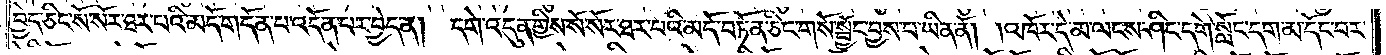བྱེད་ཅིང་སོ་སོར་ཐར་པའི་མདོ་གདོན་པ་འདོན་པར་བྱེད་ན། དགེ་འདུན་གྱིས་སོ་སོར་ཐར་བའི་མདོ་བཏོན་ཅིང་གསོ་སྦྱོང་བྱས་པ་ཡིན་ནོ། །འཁོར་དེ་མ་ལངས་ཤིང་དགེ་སློང་དག་མདོང་བར་
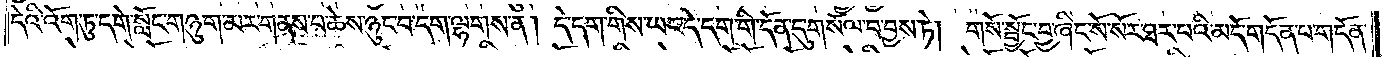དེའི་འོག་ཏུ་དགེ་སློང་གཉུག་མར་གནས་པ་ཆེས་ཉུང་བ་དག་ལྷགས་ན། དེ་དག་གིས་ཡང་དེ་དག་གི་དོན་དུ་གསོལ་བ་བྱས་ཏེ། གསོ་སྦྱོང་བྱ་ཞིང་སོ་སོར་ཐར་པའི་མདོ་གདོན་པ་གདོན་
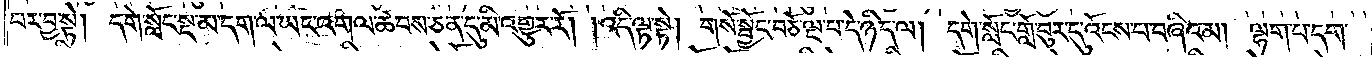པར་བྱ་སྟེ། དགེ་སློང་སྔ་མ་དག་ལ་ཡང་འགལ་ཚབས་ཅན་དུ་མི་འགྱུར་རོ། །འདི་ལྟ་སྟེ། གསོ་སྦྱོང་བཅོ་ལྔ་པ་དེ་ཉིད་ལ། དགེ་སློང་གློ་བུར་དུ་འོངས་པ་བཞིའམ། ལྷག་པ་དག་
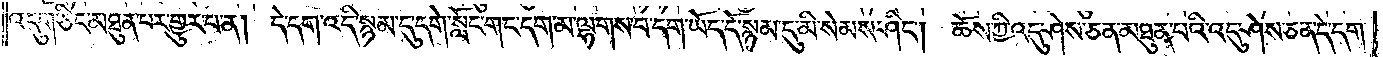འདུག་ཅིང་མཐུན་པར་གྱུར་པ་ན། དེ་དག་འདི་སྙམ་དུ་དགེ་སློང་གང་དག་མ་ལྷགས་བདག་ཡོད་དོ་སྙམ་དུ་མི་སེམས་ཤིང༌། ཆོས་ཀྱི་འདུ་ཤེས་ཅན་མཐུན་པའི་འདུ་ཤེས་ཅན་དེ་དག་
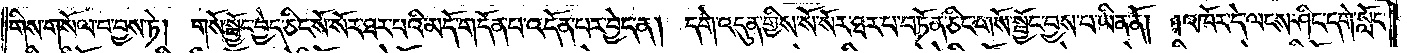གིས་གསོལ་བ་བྱས་ཏེ། གསོ་སྦྱོང་བྱེད་ཅིང་སོ་སོར་ཐར་པའི་མདོ་གདོན་པ་འདོན་པར་བྱེད་ན། དགེ་འདུན་གྱིས་སོ་སོར་ཐར་པ་བཏོན་ཅིང་གསོ་སྦྱོང་བྱས་པ་ཡིན་ནོ། །འཁོར་དེ་ལངས་ཤིང་དགེ་སློང་
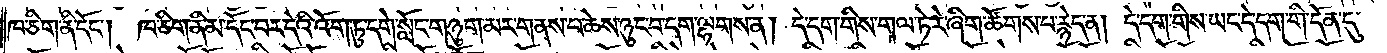ཁ་ཅིག་ནི་དོང༌། ཁ་ཅིག་ནི་མ་དོང་བར་དེའི་འོག་ཏུ་དགེ་སློང་གཉུག་མར་གནས་པ་ཆེས་ཉུང་བ་དག་ལྷགས་ན། དེ་དག་གིས་གལ་ཏེ་རེ་ཞིག་ཚོགས་པ་རྙེད་ན། དེ་དག་གིས་ཡང་དེ་དག་གི་དོན་དུ་
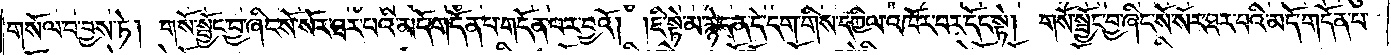གསོལ་བ་བྱས་ཏེ། གསོ་སྦྱོང་བྱ་ཞིང་སོ་སོར་ཐར་པའི་མདོ་གདོན་པ་གདོན་པར་བྱའོ། །ཇི་སྟེ་མ་རྙེད་ན་དེ་དག་གིས་དཀྱིལ་འཁོར་བར་དོང་སྟེ། གསོ་སྦྱོང་བྱ་ཞིང་སོ་སོར་ཐར་པའི་མདོ་གདོན་པ་
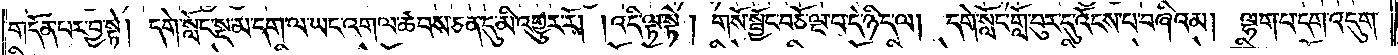གདོན་པར་བྱ་སྟེ། དགེ་སློང་སྔ་མ་དག་ལ་ཡང་འགལ་ཚབས་ཅན་དུ་མི་འགྱུར་རོ། །འདི་ལྟ་སྟེ། གསོ་སྦྱོང་བཅོ་ལྔ་པ་དེ་ཉིད་ལ། དགེ་སློང་གློ་བུར་དུ་འོངས་པ་བཞིའམ། ལྷག་པ་དག་འདུག་
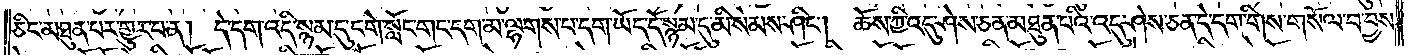ཅིང་མཐུན་པར་གྱུར་པ་ན། དེ་དག་འདི་སྙམ་དུ་དགེ་སློང་གང་དག་མ་ལྷགས་པ་དག་ཡོད་དོ་སྙམ་དུ་མི་སེམས་ཤིང༌། ཆོས་ཀྱི་འདུ་ཤེས་ཅན་མཐུན་པའི་འདུ་ཤེས་ཅན་དེ་དག་གིས་གསོལ་བ་བྱས་
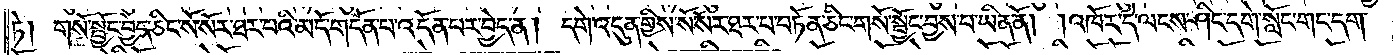ཏེ༑ གསོ་སྦྱོང་བྱེད་ཅིང་སོ་སོར་ཐར་པའི་མདོ་གདོན་པ་འདོན་པར་བྱེད་ན། དགེ་འདུན་གྱིས་སོ་སོར་ཐར་པ་བཏོན་ཅིང་གསོ་སྦྱོང་བྱས་པ་ཡིན་ནོ། །འཁོར་དེ་ལངས་ཤིང་དགེ་སློང་གང་དག་
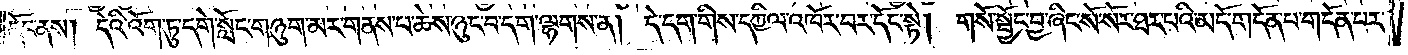དོང་ནས། དེའི་འོག་ཏུ་དགེ་སློང་གཉུག་མར་གནས་པ་ཆེས་ཉུང་བ་དག་ལྷགས་ན། དེ་དག་གིས་དཀྱིལ་འཁོར་བར་དོང་སྟེ། གསོ་སྦྱོང་བྱ་ཞིང་སོ་སོར་ཐར་པའི་མདོ་གདོན་པ་གདོན་པར་
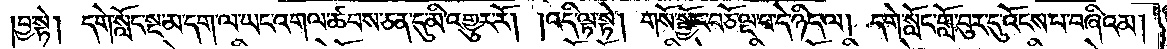བྱ་སྟེ། དགེ་སློང་སྔ་མ་དག་ལ་ཡང་འགལ་ཚབས་ཅན་དུ་མི་འགྱུར་རོ། །འདི་ལྟ་སྟེ། གསོ་སྦྱོང་བཅོ་ལྔ་པ་དེ་ཉིད་ལ། དགེ་སློང་གློ་བུར་དུ་འོངས་པ་བཞིའམ།
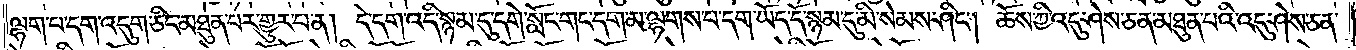ལྷག་པ་དག་འདུག་ཅིང་མཐུན་པར་གྱུར་པ་ན། དེ་དག་འདི་སྙམ་དུ་དགེ་སློང་གང་དག་མ་ལྷགས་པ་དག་ཡོད་དོ་སྙམ་དུ་མི་སེམས་ཤིང༌། ཆོས་ཀྱི་འདུ་ཤེས་ཅན་མཐུན་པའི་འདུ་ཤེས་ཅན་
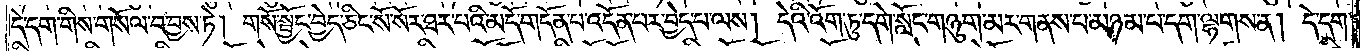དེ་དག་གིས་གསོལ་བ་བྱས་ཏེ། གསོ་སྦྱོང་བྱེད་ཅིང་སོ་སོར་ཐར་པའི་མདོ་གདོན་པ་འདོན་པར་བྱེད་པ་ལས། དེའི་འོག་ཏུ་དགེ་སློང་གཉུག་མར་གནས་པ་མཉམ་པ་དག་ལྷགས་ན། དེ་དག་
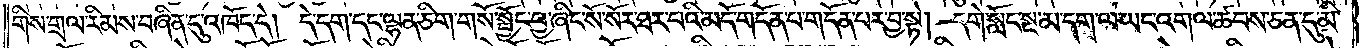གིས་གྲལ་རིམས་བཞིན་དུ་འཁོད་དེ། དེ་དག་དང་ལྷན་ཅིག་གསོ་སྦྱོང་བྱ་ཞིང་སོ་སོར་ཐར་པའི་མདོ་གདོན་པ་གདོན་པར་བྱ་སྟེ། དགེ་སློང་སྔ་མ་དག་ལ་ཡང་འགལ་ཚབས་ཅན་དུ་མི་
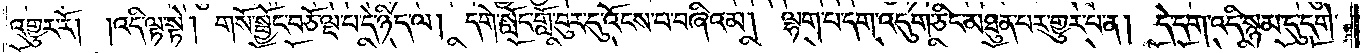འགྱུར་རོ། །འདི་ལྟ་སྟེ། གསོ་སྦྱོང་བཅོ་ལྔ་པ་དེ་ཉིད་ལ། དགེ་སློང་གློ་བུར་དུ་འོངས་པ་བཞིའམ། ལྷག་པ་དག་འདུག་ཅིང་མཐུན་པར་གྱུར་པ་ན། དེ་དག་འདི་སྙམ་དུ་དགེ་
